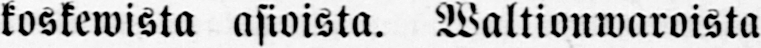koskewista asioista. Waltionwaroista
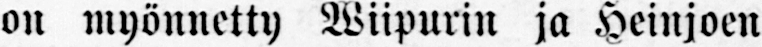on myönnetty Wiipurin ja Heinjoen
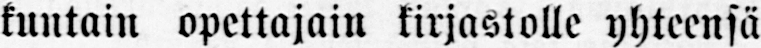kuntain opettajain kirjastolle yhteensä
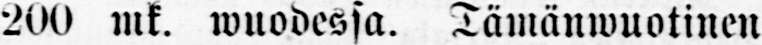200 mk. wuodessa. Tämänwuotinen
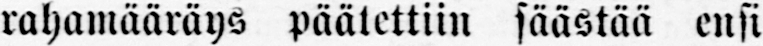rahamääräys päätettiin säästää ensi
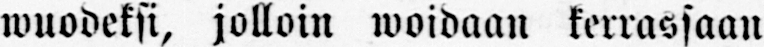wuodeksi, jolloin woidaan kerrassaan
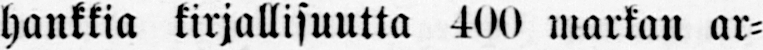hankkia kirjallisuutta 400 markan ar-
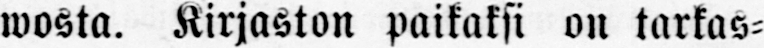wosta. Kirjaston paikaksi on tarkas-
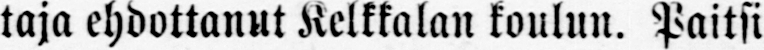taja ehdottanut Kelkkalan koulun. Paitsi
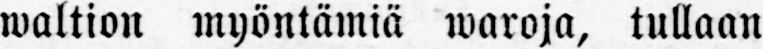waltion myöntämiä waroja, tullaan
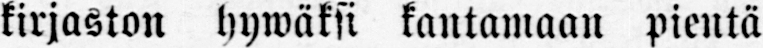kirjaston hywäksi kantamaan pientä
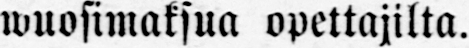wuosimaksua opettajilta.
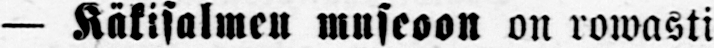— Käkisalmen museoon on rowasti
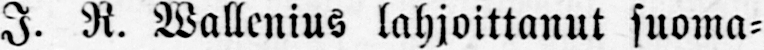I. R. Wallenius lahjoittanut suoma-
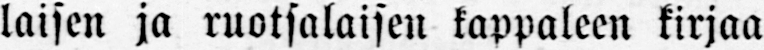laisen ja ruotsalaisen kappaleen kirjaa
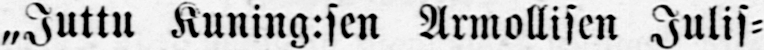„Juttu Kuning:sen Armollisen Julis-
